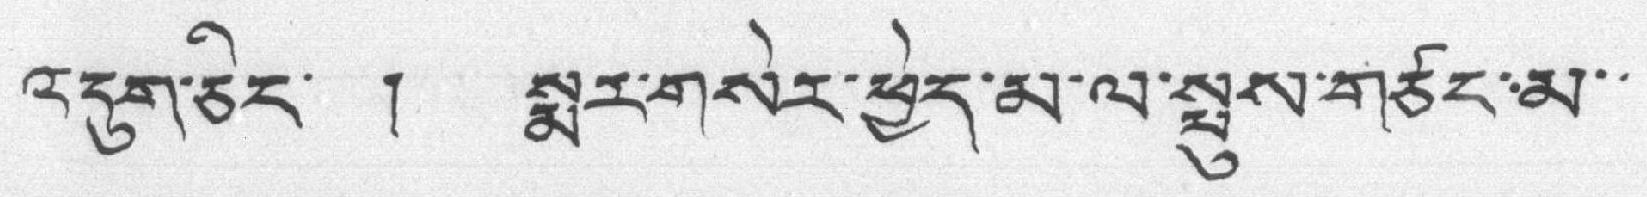འདུག་ཅིང་ ། སྨར་གསེར་ཕྱེད་མ་ལ་སྤུས་གཙང་མ་་
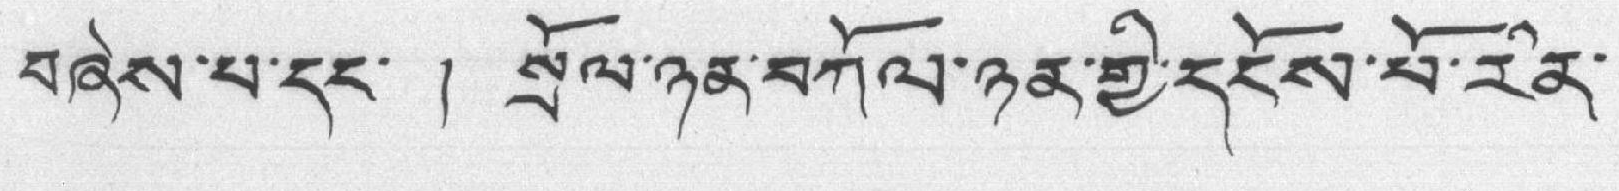བཞེས་པ་དང་ ། སྲོལ་ཉན་བཀོལ་ཉན་གྱི་དངོས་པོ་རིན་
